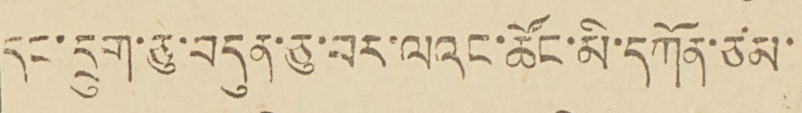དང་དྲུང་ཅུ་བདུན་ཅུ་པར་ལའང་ཚོང་མི་དཀོན་ཙམ་
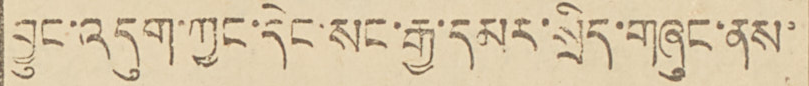བྱུང་འདུག་ཀྱང་དེང་སང་རྒྱ་དམར་སྲིད་གཞུང་ནས་
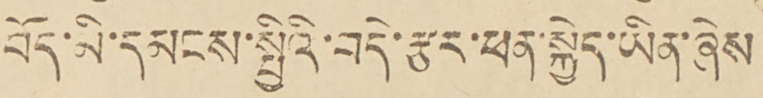བོད་མི་དམངས་སྤྱིའི་བདེ་རྩར་ཕན་སྐྱེད་ཡིན་ཞེས
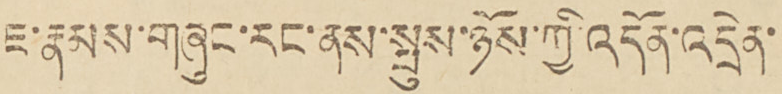ཇ་རྣམས་གཞུང་རང་ནས་སྤུས་ཉོས་ཀྱི་འདོན་འདྲེན་
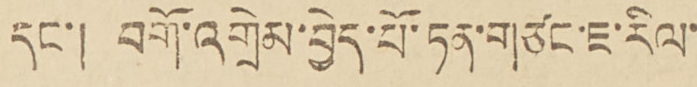དང་། བགོ་འགྲེམ་བྱེད་པོ་ཏན་གཙང་ཇ་རིལ་
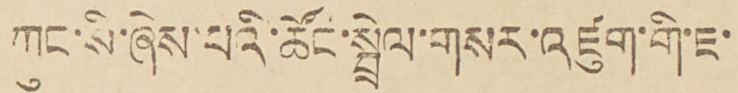ཀུང་སི་ཞེས་པའི་ཚོང་སྤྲེལ་གསར་འཛུག་གི་ཇ་
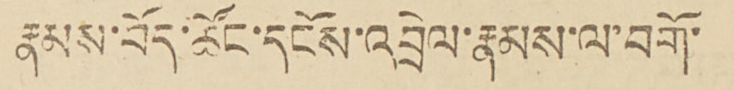རྣམས་བོད་ཚོང་དངོས་འབྲེལ་རྣམས་ལ་བགོ་
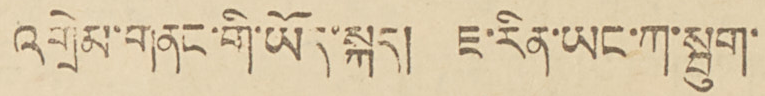འགྲེམ་གནང་གི་ཡོད་སྐད། ཇ་རིན་ཡང་ཀ་སྤུག་
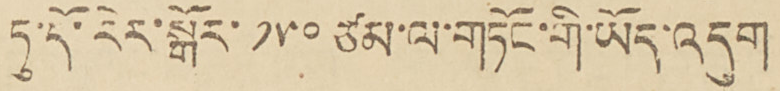ཏུ་དོ་རེར་སྒོར་ ༡༥༠ ཙམ་ལ་གཏོང་གི་ཡོད་འདུག
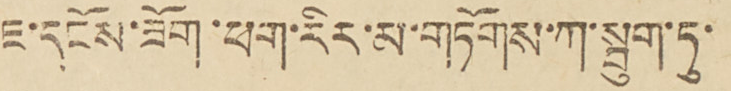ཇ་དངོས་ཟོག་ཕག་རིང་མ་གཏོགས་ཀ་སྤུག་ཏུ་
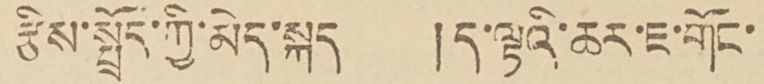རྩིས་སྤྲོད་ཀྱི་མེད་སྐད །ད་ལྟའི་ཆར་ཇ་གོང་
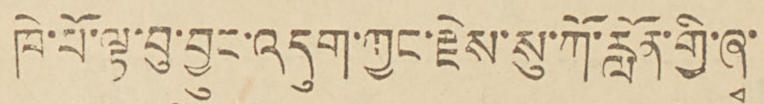ཁེ་པོ་ལྟ་བུ་བྱུང་འདུག་ཀྱང་རྗེས་སུ་ཀོ་རློང་གྱི་ཞྭ་
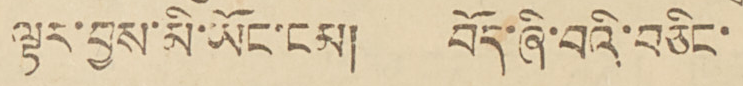ལྟར་བྱས་མི་ཡོང་ངམ། བོད་ཞི་བའི་བཅིང་
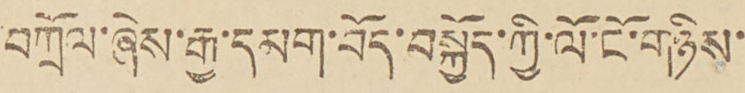བཀྲོལ་ཞེས་རྒྱ་དམག་བོད་སྐྱོད་ཀྱི་ལོ་ངོ་གཉིས་
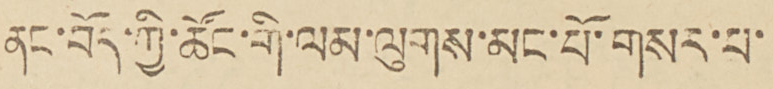ནང་བོད་ཀྱི་ཚོང་གི་ལམ་ལུགས་མང་པོ་གསར་པ་
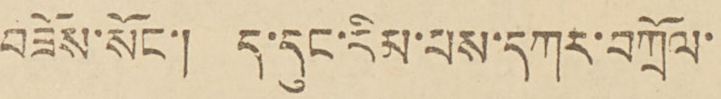བཟོས་སོང་། ད་དུང་རིམ་པས་དཀར་བཀྲོལ་
